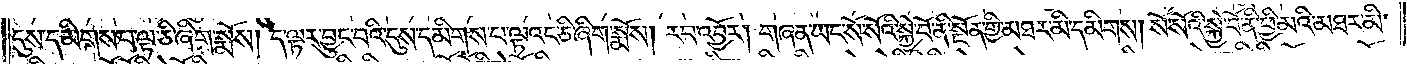དུས་དམིགས་པ་ལྟ་ཅི་ཞིག་སྨོས། ད་ལྟར་བྱུང་བའི་དུས་དམིགས་པ་ལྟའང་ཅི་ཞིག་སྨོས། རབ་འབྱོར། གཞན་ཡང་སོ་སོའི་སྐྱེ་བོ་ནི་སྔོན་གྱི་མཐར་མི་དམིགས། སོ་སོའི་སྐྱེ་བོ་ནི་ཕྱི་མའི་མཐར་མི་
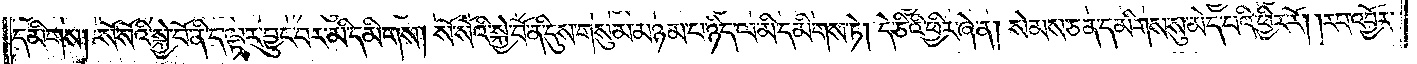དམིགས། སོ་སོའི་སྐྱེ་བོ་ནི་ད་ལྟར་བྱུང་བར་མི་དམིགས། སོ་སོའི་སྐྱེ་བོ་ནི་དུས་གསུམ་མཉམ་པ་ཉིད་ལ་མི་དམིགས་ཏེ། དེ་ཅིའི་ཕྱིར་ཞེ་ན། སེམས་ཅན་དམིགས་སུ་མེད་པའི་ཕྱིར་རོ། །རབ་འབྱོར།
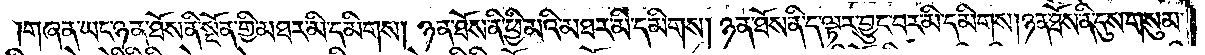གཞན་ཡང་ཉན་ཐོས་ནི་སྔོན་གྱི་མཐར་མི་དམིགས། ཉན་ཐོས་ནི་ཕྱི་མའི་མཐར་མི་དམིགས། ཉན་ཐོས་ནི་ད་ལྟར་བྱུང་བར་མི་དམིགས། ཉན་ཐོས་ནི་དུས་གསུམ་
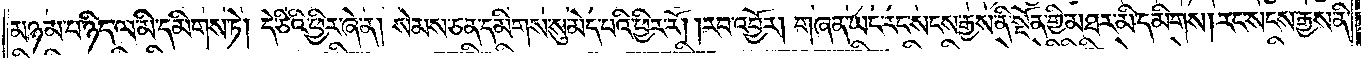མཉམ་པ་ཉིད་ལ་མི་དམིགས་ཏེ། དེ་ཅིའི་ཕྱིར་ཞེ་ན། སེམས་ཅན་དམིགས་སུ་མེད་པའི་ཕྱིར་རོ། །རབ་འབྱོར། གཞན་ཡང་རང་སངས་རྒྱས་ནི་སྔོན་གྱི་མཐར་མི་དམིགས། རང་སངས་རྒྱས་ནི་
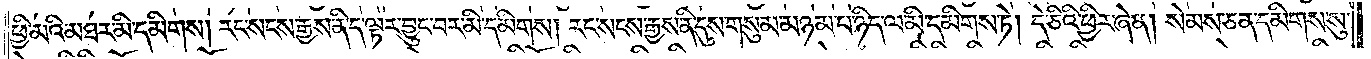ཕྱི་མའི་མཐར་མི་དམིགས། རང་སངས་རྒྱས་ནི་ད་ལྟར་བྱུང་བར་མི་དམིགས། རང་སངས་རྒྱས་ནི་དུས་གསུམ་མཉམ་པ་ཉིད་ལ་མི་དམིགས་ཏེ། དེ་ཅིའི་ཕྱིར་ཞེ་ན། སེམས་ཅན་དམིགས་སུ་
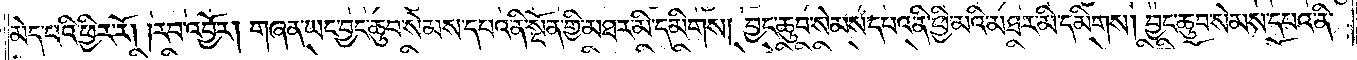མེད་པའི་ཕྱིར་རོ། །རབ་འབྱོར། གཞན་ཡང་བྱང་ཆུབ་སེམས་དཔའ་ནི་སྔོན་གྱི་མཐར་མི་དམིགས། བྱང་ཆུབ་སེམས་དཔའ་ནི་ཕྱི་མའི་མཐར་མི་དམིགས། བྱང་ཆུབ་སེམས་དཔའ་ནི་
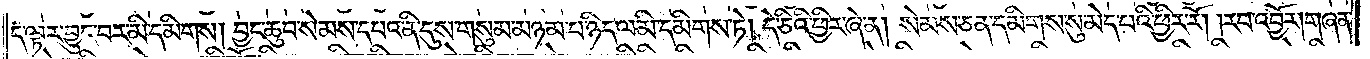ད་ལྟར་བྱུང་བར་མི་དམིགས། བྱང་ཆུབ་སེམས་དཔའ་ནི་དུས་གསུམ་མཉམ་པ་ཉིད་ལ་མི་དམིགས་ཏེ། དེ་ཅིའི་ཕྱིར་ཞེ་ན། སེམས་ཅན་དམིགས་སུ་མེད་པའི་ཕྱིར་རོ། །རབ་འབྱོར། གཞན་
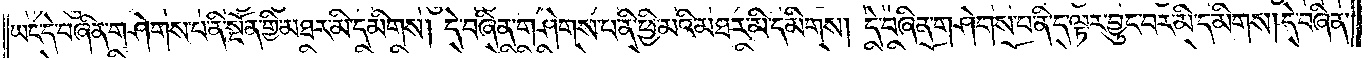ཡང་དེ་བཞིན་གཤེགས་པ་ནི་སྔོན་གྱི་མཐར་མི་དམིགས། དེ་བཞིན་གཤེགས་པ་ནི་ཕྱི་མའི་མཐར་མི་དམིགས། དེ་བཞིན་གཤེགས་པ་ནི་ད་ལྟར་བྱུང་བར་མི་དམིགས། དེ་བཞིན་
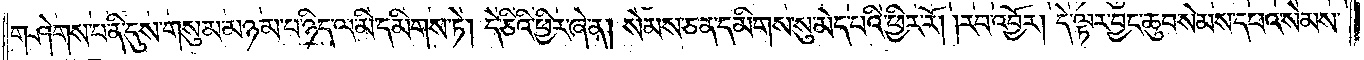གཤེགས་པ་ནི་དུས་གསུམ་མཉམ་པ་ཉིད་ལ་མི་དམིགས་ཏེ། དེ་ཅིའི་ཕྱིར་ཞེ་ན། སེམས་ཅན་དམིགས་སུ་མེད་པའི་ཕྱིར་རོ། །རབ་འབྱོར། དེ་ལྟར་བྱང་ཆུབ་སེམས་དཔའ་སེམས་
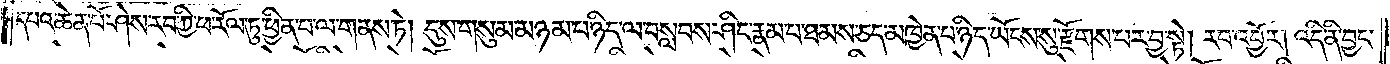དཔའ་ཆེན་པོ་ཤེས་རབ་ཀྱི་ཕ་རོལ་ཏུ་ཕྱིན་པ་ལ་གནས་ཏེ། དུས་གསུམ་མཉམ་པ་ཉིད་ལ་བསླབས་ཤིང་རྣམ་པ་ཐམས་ཅད་མཁྱེན་པ་ཉིད་ཡོངས་སུ་རྫོགས་པར་བྱ་སྟེ། རབ་འབྱོར། འདི་ནི་བྱང་
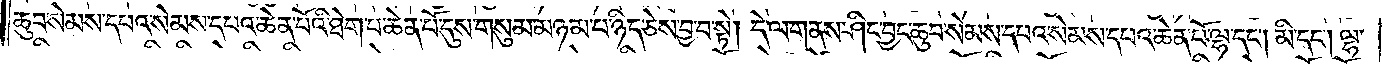ཆུབ་སེམས་དཔའ་སེམས་དཔའ་ཆེན་པོའི་ཐེག་པ་ཆེན་པོ་དུས་གསུམ་མཉམ་པ་ཉིད་ཅེས་བྱ་བ་སྟེ། དེ་ལ་གནས་ཤིང་བྱང་ཆུབ་སེམས་དཔའ་སེམས་དཔའ་ཆེན་པོ་ལྷ་དང༌། མི་དང༌། ལྷ་
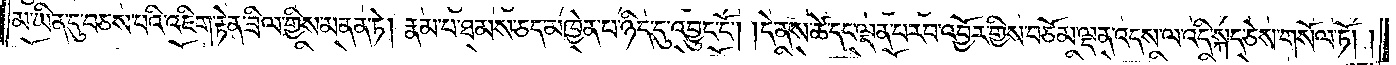མ་ཡིན་དུ་བཅས་པའི་འཇིག་རྟེན་ཟིལ་གྱིས་མནན་ཏེ། རྣམ་པ་ཐམས་ཅད་མཁྱེན་པ་ཉིད་དུ་འབྱུང་ངོ༌། །དེ་ནས་ཚེ་དང་ལྡན་པ་རབ་འབྱོར་གྱིས་བཅོམ་ལྡན་འདས་ལ་འདི་སྐད་ཅེས་གསོལ་ཏོ། །
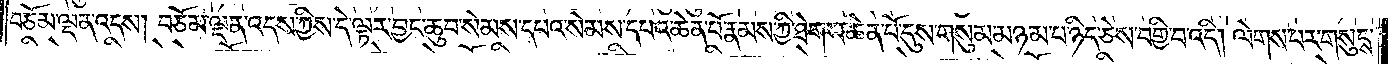བཅོམ་ལྡན་འདས། བཅོམ་ལྡན་འདས་ཀྱིས་དེ་ལྟར་བྱང་ཆུབ་སེམས་དཔའ་སེམས་དཔའ་ཆེན་པོ་རྣམས་ཀྱི་ཐེག་པ་ཆེན་པོ་དུས་གསུམ་མཉམ་པ་ཉིད་ཅེས་བགྱི་བ་འདི། ལེགས་པར་གསུངས་
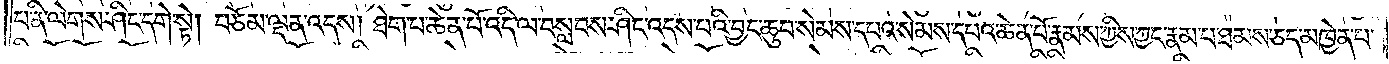པ་ནི་ལེགས་ཤིང་དགེ་སྟེ། བཅོམ་ལྡན་འདས་ཐེག་པ་ཆེན་པོ་འདི་ལ་བསླབས་ཤིང་འདས་པའི་བྱང་ཆུབ་སེམས་དཔའ་སེམས་དཔའ་ཆེན་པོ་རྣམས་ཀྱིས་ཀྱང་རྣམ་པ་ཐམས་ཅད་མཁྱེན་པ་
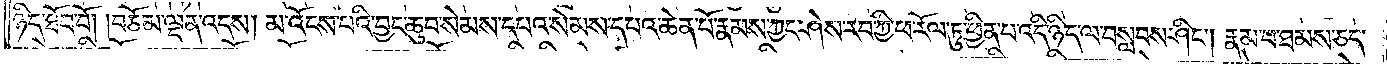ཉིད་ཐོབ་བོ། །བཅོམ་ལྡན་འདས། མ་འོངས་པའི་བྱང་ཆུབ་སེམས་དཔའ་སེམས་དཔའ་ཆེན་པོ་རྣམས་ཀྱང་ཤེས་རབ་ཀྱི་ཕ་རོལ་ཏུ་ཕྱིན་པ་འདི་ཉིད་ལ་བསླབས་ཤིང༌། རྣམ་པ་ཐམས་ཅད་
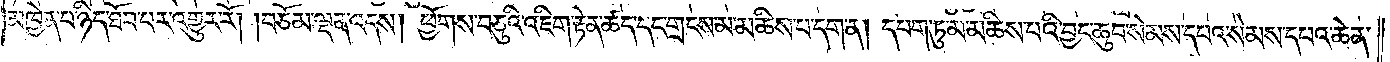མཁྱེན་པ་ཉིད་ཐོབ་པར་འགྱུར་རོ། །བཅོམ་ལྡན་འདས། ཕྱོགས་བཅུའི་འཇིག་རྟེན་ཚད་དང་གྲངས་མ་མཆིས་པ་དག་ན། དཔག་ཏུ་མ་མཆིས་པའི་བྱང་ཆུབ་སེམས་དཔའ་སེམས་དཔའ་ཆེན་
